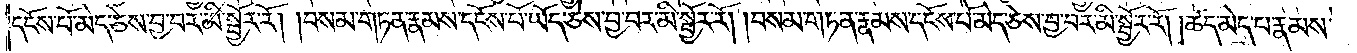དངོས་པོ་མེད་ཅེས་བྱ་བར་མི་སྦྱོར་རོ། །བསམ་གཏན་རྣམས་དངོས་པོ་ཡོད་ཅེས་བྱ་བར་མི་སྦྱོར་རོ། །བསམ་གཏན་རྣམས་དངོས་པོ་མེད་ཅེས་བྱ་བར་མི་སྦྱོར་རོ། །ཚད་མེད་པ་རྣམས་
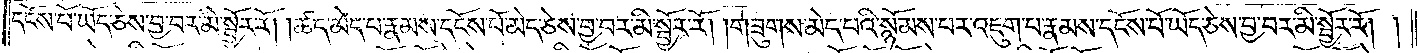དངོས་པོ་ཡོད་ཅེས་བྱ་བར་མི་སྦྱོར་རོ། །ཚད་མེད་པ་རྣམས་དངོས་པོ་མེད་ཅེས་བྱ་བར་མི་སྦྱོར་རོ། །གཟུགས་མེད་པའི་སྙོམས་པར་འཇུག་པ་རྣམས་དངོས་པོ་ཡོད་ཅེས་བྱ་བར་མི་སྦྱོར་རོ། །
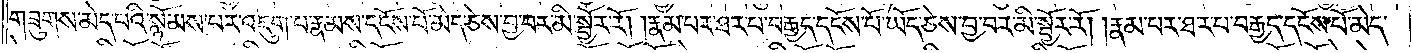གཟུགས་མེད་པའི་སྙོམས་པར་འཇུག་པ་རྣམས་དངོས་པོ་མེད་ཅེས་བྱ་བར་མི་སྦྱོར་རོ། །རྣམ་པར་ཐར་པ་བརྒྱད་དངོས་པོ་ཡོད་ཅེས་བྱ་བར་མི་སྦྱོར་རོ། །རྣམ་པར་ཐར་པ་བརྒྱད་དངོས་པོ་མེད་
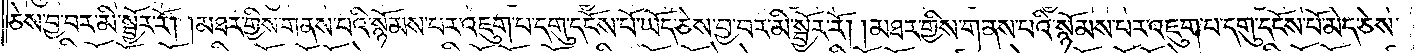ཅེས་བྱ་བར་མི་སྦྱོར་རོ། །མཐར་གྱིས་གནས་པའི་སྙོམས་པར་འཇུག་པ་དགུ་དངོས་པོ་ཡོད་ཅེས་བྱ་བར་མི་སྦྱོར་རོ། །མཐར་གྱིས་གནས་པའི་སྙོམས་པར་འཇུག་པ་དགུ་དངོས་པོ་མེད་ཅེས་
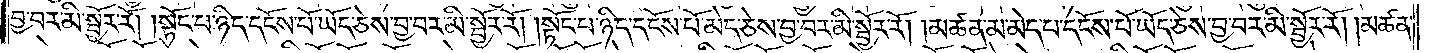བྱ་བར་མི་སྦྱོར་རོ། །སྟོང་པ་ཉིད་དངོས་པོ་ཡོད་ཅེས་བྱ་བར་མི་སྦྱོར་རོ། །སྟོང་པ་ཉིད་དངོས་པོ་མེད་ཅེས་བྱ་བར་མི་སྦྱོར་རོ། །མཚན་མ་མེད་པ་དངོས་པོ་ཡོད་ཅེས་བྱ་བར་མི་སྦྱོར་རོ། །མཚན་
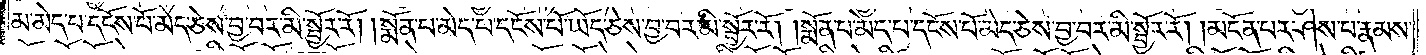མ་མེད་པ་དངོས་པོ་མེད་ཅེས་བྱ་བར་མི་སྦྱོར་རོ། །སྨོན་པ་མེད་པ་དངོས་པོ་ཡོད་ཅེས་བྱ་བར་མི་སྦྱོར་རོ། །སྨོན་པ་མེད་པ་དངོས་པོ་མེད་ཅེས་བྱ་བར་མི་སྦྱོར་རོ། །མངོན་པར་ཤེས་པ་རྣམས་
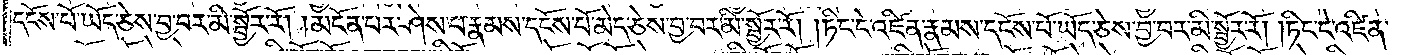དངོས་པོ་ཡོད་ཅེས་བྱ་བར་མི་སྦྱོར་རོ། །མངོན་པར་ཤེས་པ་རྣམས་དངོས་པོ་མེད་ཅེས་བྱ་བར་མི་སྦྱོར་རོ། །ཏིང་ངེ་འཛིན་རྣམས་དངོས་པོ་ཡོད་ཅེས་བྱ་བར་མི་སྦྱོར་རོ། །ཏིང་ངེ་འཛིན་
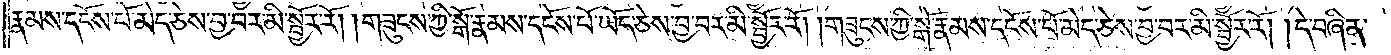རྣམས་དངོས་པོ་མེད་ཅེས་བྱ་བར་མི་སྦྱོར་རོ། །གཟུངས་ཀྱི་སྒོ་རྣམས་དངོས་པོ་ཡོད་ཅེས་བྱ་བར་མི་སྦྱོར་རོ། །གཟུངས་ཀྱི་སྒོ་རྣམས་དངོས་པོ་མེད་ཅེས་བྱ་བར་མི་སྦྱོར་རོ། །དེ་བཞིན་
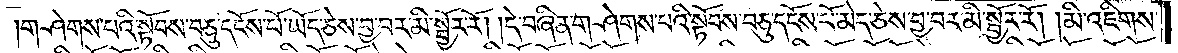གཤེགས་པའི་སྟོབས་བཅུ་དངོས་པོ་ཡོད་ཅེས་བྱ་བར་མི་སྦྱོར་རོ། །དེ་བཞིན་གཤེགས་པའི་སྟོབས་བཅུ་དངོས་པོ་མེད་ཅེས་བྱ་བར་མི་སྦྱོར་རོ། །མི་འཇིགས་
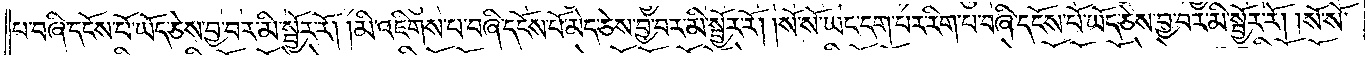པ་བཞི་དངོས་པོ་ཡོད་ཅེས་བྱ་བར་མི་སྦྱོར་རོ། །མི་འཇིགས་པ་བཞི་དངོས་པོ་མེད་ཅེས་བྱ་བར་མི་སྦྱོར་རོ། །སོ་སོ་ཡང་དག་པར་རིག་པ་བཞི་དངོས་པོ་ཡོད་ཅེས་བྱ་བར་མི་སྦྱོར་རོ། །སོ་སོ་
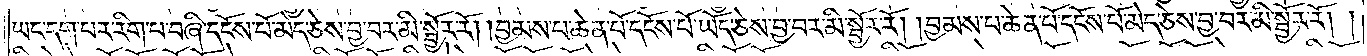ཡང་དག་པར་རིག་པ་བཞི་དངོས་པོ་མེད་ཅེས་བྱ་བར་མི་སྦྱོར་རོ། །བྱམས་པ་ཆེན་པོ་དངོས་པོ་ཡོད་ཅེས་བྱ་བར་མི་སྦྱོར་རོ། །བྱམས་པ་ཆེན་པོ་དངོས་པོ་མེད་ཅེས་བྱ་བར་མི་སྦྱོར་རོ། །
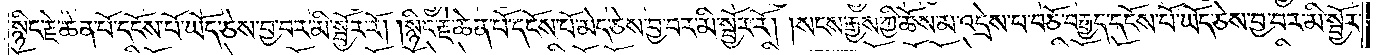སྙིང་རྗེ་ཆེན་པོ་དངོས་པོ་ཡོད་ཅེས་བྱ་བར་མི་སྦྱོར་རོ། །སྙིང་རྗེ་ཆེན་པོ་དངོས་པོ་མེད་ཅེས་བྱ་བར་མི་སྦྱོར་རོ། །སངས་རྒྱས་ཀྱི་ཆོས་མ་འདྲེས་པ་བཅོ་བརྒྱད་དངོས་པོ་ཡོད་ཅེས་བྱ་བར་མི་སྦྱོར་
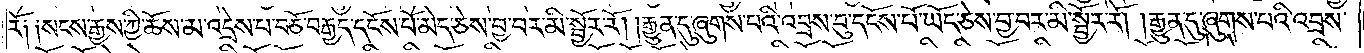རོ༑ ༑སངས་རྒྱས་ཀྱི་ཆོས་མ་འདྲེས་པ་བཅོ་བརྒྱད་དངོས་པོ་མེད་ཅེས་བྱ་བར་མི་སྦྱོར་རོ། །རྒྱུན་དུ་ཞུགས་པའི་འབྲས་བུ་དངོས་པོ་ཡོད་ཅེས་བྱ་བར་མི་སྦྱོར་རོ། །རྒྱུན་དུ་ཞུགས་པའི་འབྲས་
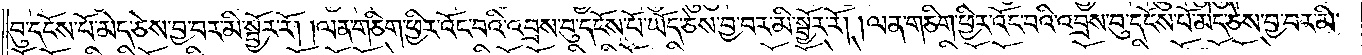བུ་དངོས་པོ་མེད་ཅེས་བྱ་བར་མི་སྦྱོར་རོ། །ལན་གཅིག་ཕྱིར་འོང་བའི་འབྲས་བུ་དངོས་པོ་ཡོད་ཅེས་བྱ་བར་མི་སྦྱོར་རོ། །ལན་གཅིག་ཕྱིར་འོང་བའི་འབྲས་བུ་དངོས་པོ་མེད་ཅེས་བྱ་བར་མི་
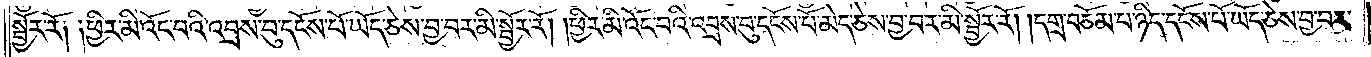སྦྱོར་རོ༑ ༑ཕྱིར་མི་འོང་བའི་འབྲས་བུ་དངོས་པོ་ཡོད་ཅེས་བྱ་བར་མི་སྦྱོར་རོ། །ཕྱིར་མི་འོང་བའི་འབྲས་བུ་དངོས་པོ་མེད་ཅེས་བྱ་བར་མི་སྦྱོར་རོ། །དགྲ་བཅོམ་པ་ཉིད་དངོས་པོ་ཡོད་ཅེས་བྱ་བར་
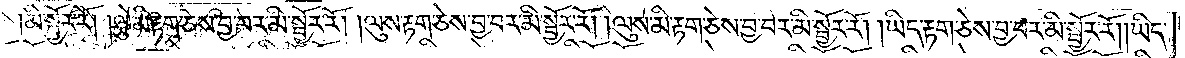མི་སྦྱོར་རོ། །ལྕེ་མི་རྟག་ཅེས་བྱ་བར་མི་སྦྱོར་རོ། །ལུས་རྟག་ཅེས་བྱ་བར་མི་སྦྱོར་རོ། །ལུས་མི་རྟག་ཅེས་བྱ་བར་མི་སྦྱོར་རོ། །ཡིད་རྟག་ཅེས་བྱ་བར་མི་སྦྱོར་རོ། །ཡིད་
